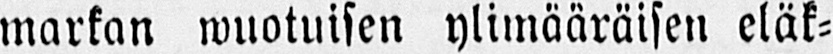markan wuotuisen ylimääräisen eläk-
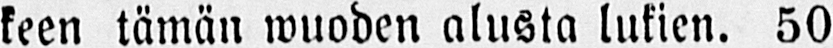keen tämän wuoden alusta lukien. 50
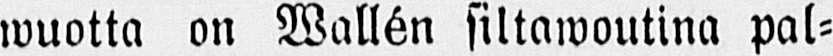wuotta on Wallén siltawoutina pal-
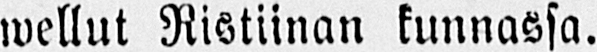wellut Ristiinan kunnassa.
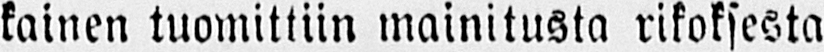kainen tuomittiin mainitusta rikoksesta
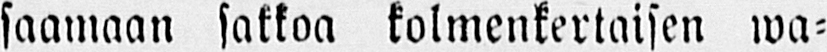saamaan sakkoa kolmenkertaisen wa-
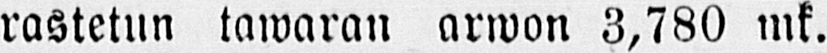rastetun tawaran arwon 3,780 mk.
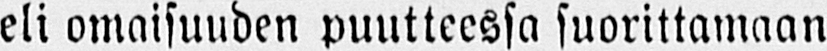eli omaisuuden puutteessa suorittamaan
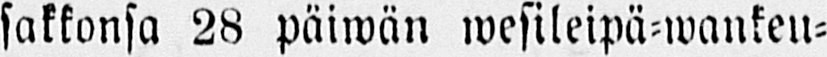sakkonsa 28 päiwän wesileipä-wankeu-
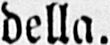della.
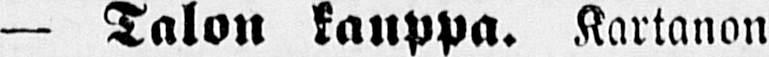— Talon kauppa. Kartanon
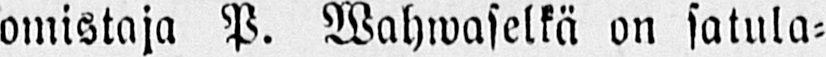omistaja P. Wahwaselkä on satula-
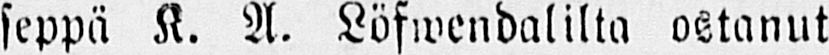seppä K. A. Löfwendalilta ostanut
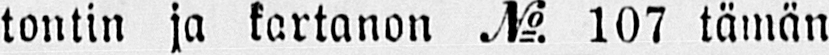tontin ja kartanon No. 107 tämän
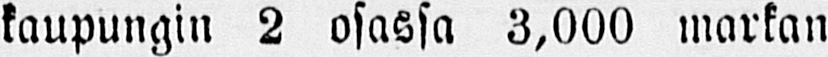kaupungin 2 osassa 3,000 markan
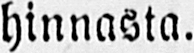hinnasta.
